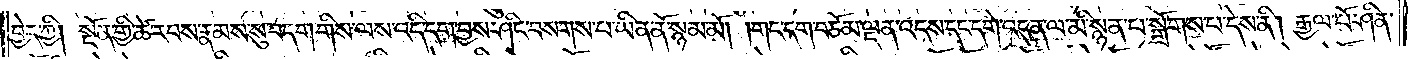བྱེད་ཀྱི། སྔོན་གྱི་ཚེ་རབས་རྣམས་སུ་བདག་གིས་ལས་འདི་དག་བྱས་ཤིང་བསགས་པ་ཡིན་ནོ་སྙམ་མོ། །གང་དག་བཅོམ་ལྡན་འདས་དང་དགེ་འདུན་ལ་མི་སྙན་པ་སྒྲོགས་པ་དེས་ནི། རྒྱལ་པོ་ཤིན་
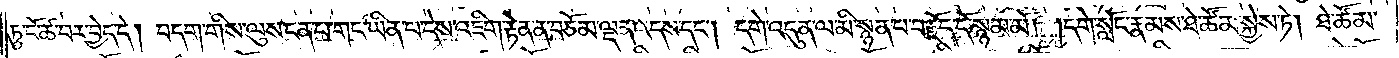ཏུ་ངོ་ཚ་བར་བྱེད་དེ། བདག་གིས་ལུས་ངན་པ་གང་ཡིན་པ་དེས་འཇིག་རྟེན་ན་བཅོམ་ལྡན་འདས་དང༌། དགེ་འདུན་ལ་མི་སྙན་པ་བརྗོད་དོ་སྙམ་མོ། །དགེ་སློང་རྣམས་ཐེ་ཚོམ་སྐྱེས་ཏེ། ཐེ་ཚོམ་
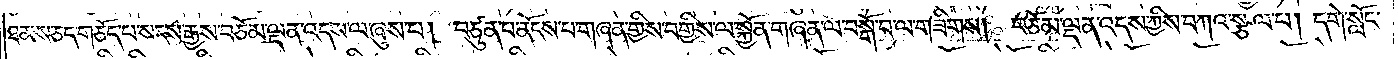ཐམས་ཅད་གཅོད་པ་སངས་རྒྱས་བཅོམ་ལྡན་འདས་ལ་ཞུས་པ། བཙུན་པ་ནོངས་པ་གཞན་གྱིས་བགྱིས་ལ་སྐྱོན་གཞན་ལ་བསྒོ་བ་ལ་གཟིགས། བཅོམ་ལྡན་འདས་ཀྱིས་བཀའ་སྩལ་པ། དགེ་སློང་
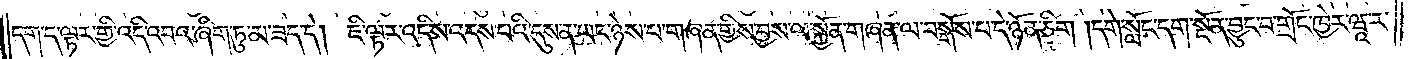དག་ད་ལྟར་གྱི་འདི་འབའ་ཞིག་ཏུ་མ་ཟད་དེ། ཇི་ལྟར་འདིས་འདས་པའི་དུས་ན་ཡང་ཉེས་པ་གཞན་གྱིས་བྱས་ལ་སྐྱོན་གཞན་ལ་བསྒོས་པ་དེ་ཉོན་ཅིག །དགེ་སློང་དག་སྔོན་བྱུང་བ་གྲོང་ཁྱེར་ཝཱ་ར་
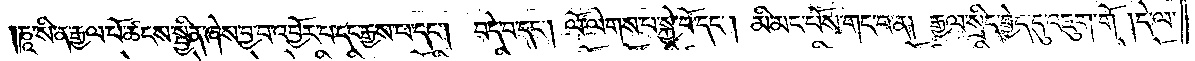ཎཱ་སི་ན་རྒྱལ་པོ་ཚངས་སྦྱིན་ཞེས་བྱ་བ་འབྱོར་པ་དང་རྒྱས་པ་དང༌། བདེ་བ་དང༌། ལོ་ལེགས་པ་སྐྱེ་བོ་དང༌། མི་མང་པོས་གང་བ་ན། རྒྱལ་སྲིད་བྱེད་དུ་འཇུག་གོ །དེ་ལ་
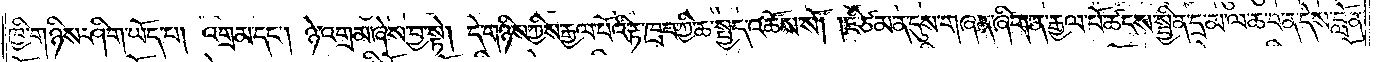ཁྱི་གཉིས་ཤིག་ཡོད་པ། འགྲམ་དང༌། ཉེ་འགྲམ་ཞེས་བྱ་སྟེ། དེ་གཉིས་ཀྱིས་རྒྱལ་པོའི་རྟ་ཁྲབ་ཀྱི་ཆ་སྤྱད་འཆོས་སོ། །ཇི་ཙམ་ན་དུས་གཞན་ཞིག་ན་རྒྱལ་པོ་ཚངས་སྦྱིན་དྲ་མ་ལ་ཆ་བ་ན་དེས་བློན་
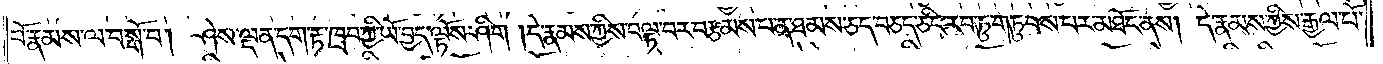པོ་རྣམས་ལ་བསྒོ་བ། ཤེས་ལྡན་དག་རྟ་ཁྲབ་ཀྱི་ཡོ་བྱད་ལྟོས་ཤིག །དེ་རྣམས་ཀྱིས་བལྟ་བར་བརྩམས་པ་ན་ཐམས་ཅད་བཅད་ཅིང་རབ་ཏུ་གཏུབས་པར་མཐོང་ནས། དེ་རྣམས་ཀྱིས་རྒྱལ་པོ་
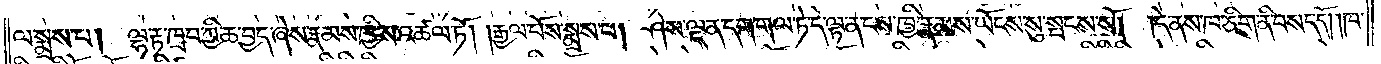ལ་སྨྲས་པ། ལྷ་རྟ་ཁྲབ་ཀྱི་ཆ་བྱད་ཞེས་རྣམས་ཁྱིས་འཚལ་ཏོ། །རྒྱལ་པོས་སྨྲས་པ། ཤེས་ལྡན་དག་གལ་ཏེ་དེ་ལྟ་ན་ངས་ཁྱི་རྣམས་ཡོངས་སུ་སྤངས་སོ། །དེ་ནས་ཁ་ཅིག་ནི་བསད་དོ། ཁ་
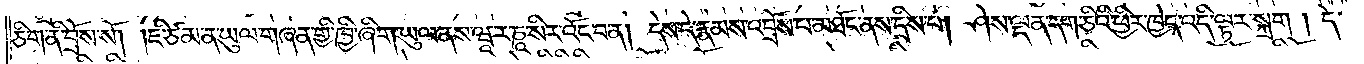ཅིག་ནི་བྲོས་སོ། །ཇི་ཙམ་ན་ཡུལ་གཞན་གྱི་ཁྱི་ཞིག་ཡུལ་ནས་ཝཱ་ར་ཎཱ་སིར་འོང་བ་ན། དེས་དེ་རྣམས་འབྲོས་པ་མཐོང་ནས་དྲིས་པ། ཤེས་ལྡན་དག་ཅིའི་ཕྱིར་ཁྱེད་འདི་ལྟར་སྐྲག །དེ་
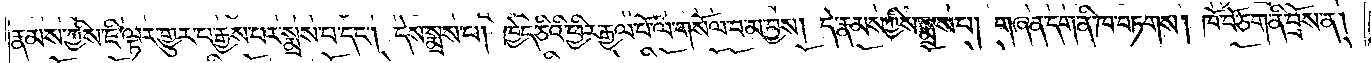རྣམས་ཀྱིས་ཇི་ལྟར་གྱུར་པ་རྒྱས་པར་སྨྲས་པ་དང༌། དེས་སྨྲས་པ། ཁྱེད་ཅིའི་ཕྱིར་རྒྱལ་པོ་ལ་གསོལ་བ་མ་བྱས། དེ་རྣམས་ཀྱིས་སྨྲས་པ། གཞན་དག་ནི་ཁ་བཏགས། ཁོ་བོ་ཅག་ནི་བྲོས་ན།
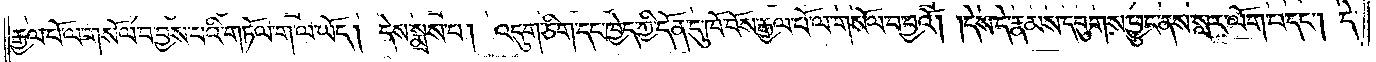རྒྱལ་པོ་ལ་གསོལ་བ་བྱས་པའི་གཏོལ་ག་ལ་ཡོད། དེས་སྨྲས་པ། འདུག་ཅིག་དང་ཁྱེད་ཀྱི་དོན་དུ་ཁོ་བོས་རྒྱལ་པོ་ལ་གསོལ་བ་བྱའོ། །དེས་དེ་རྣམས་དབུགས་ཕྱུང་ནས་སླར་ལོག་པ་དང༌། དེ་
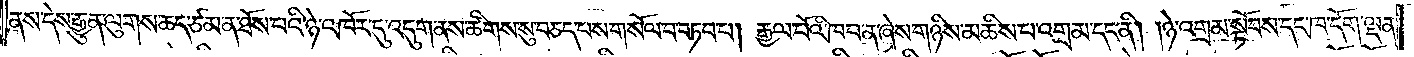ནས་དེས་རྒྱུན་ལུགས་ཆད་ཙམ་ན་ཐོས་པའི་ཉེ་འཁོར་དུ་འདུག་ནས་ཚིགས་སུ་བཅད་པས་གསོལ་པ་བཏབ་པ། རྒྱལ་པོའི་ཁབ་ན་ཞེས་གཉིས་མཆིས་པ་འགྲམ་དང་ནི། །ཉེ་འགྲམ་སྟོབས་དང་ཁ་དོག་ལྡན་
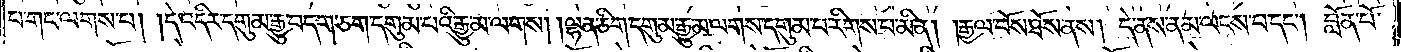པ་གང་ལགས་པ། །དེ་འདིར་དགུམ་རྒྱུ་བདག་ཅག་དགུམ་པའི་རྒྱུ་མ་ལགས། །ལྷན་ཅིག་དགུམ་རྒྱུ་མ་ལགས་དགུམ་པ་རིགས་པ་མིན། །རྒྱལ་བོས་ཐོས་ནས། དེ་ནས་ནམ་ལངས་པ་དང༌། བློན་པོ་
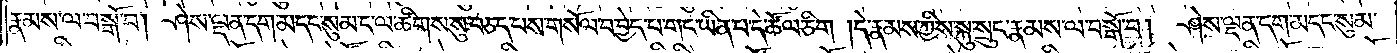རྣམས་ལ་བསྒོ་བ། ཤེས་ལྡན་དག་མདང་སུམ་ང་ལ་ཚིགས་སུ་བཅད་པས་གསོལ་བ་བྱེད་པ་གང་ཡིན་པ་དེ་ཚོལ་ཅིག །དེ་རྣམས་ཀྱིས་སྐུ་སྲུང་རྣམས་ལ་བསྒོ་བ། ཤེས་ལྡན་དག་མདང་སུམ་
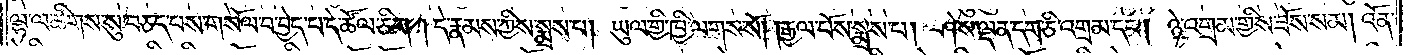ལྷ་ལ་ཚིགས་སུ་བཅད་པས་གསོལ་བ་བྱེད་པ་དེ་ཚོལ་ཅིག །དེ་རྣམས་ཀྱིས་སྨྲས་པ། ཡུལ་གྱི་ཁྱི་ལགས་སོ། །རྒྱལ་པོས་སྨྲས་པ། ཤེས་ལྡན་དག་ཅི་འགྲམ་དང༌། ཉེ་འགྲམ་གྱིས་ཟོས་སམ། འོན་
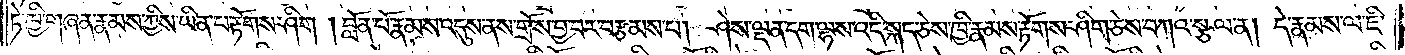ཏེ་ཁྱི་གཞན་རྣམས་ཀྱིས་ཡིན་པ་རྟོགས་ཤིག །བློན་པོ་རྣམས་འདུས་ནས་གྲོས་བྱ་བར་བརྩམས་པ། ཤེས་ལྡན་དག་ལྷས་འདི་སྐད་ཅེས་ཁྱི་རྣམས་རྟོགས་ཤིག་ཅེས་བཀའ་སྩལ་ན། དེ་རྣམས་ལ་ཇི་
